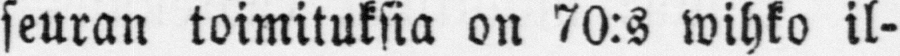seuran toimituksia on 70:s wihko il-
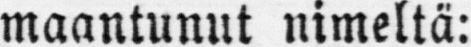maantunut nimeltä:
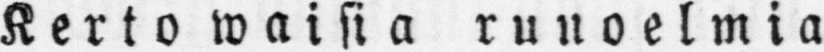Kerto waisia runoelmia.
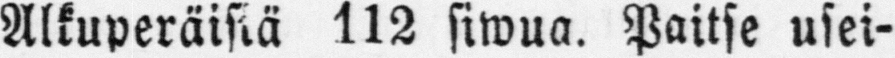Alkuperäisiä 112 siwua. Paitse usei-
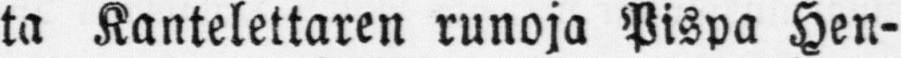ta Kantelettaren runoja Pispa Hen-
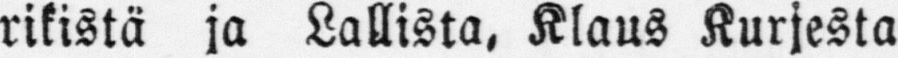rikistä ja Lallista. Klaus Kurjesta
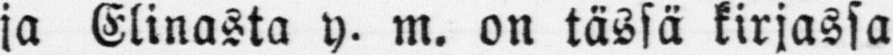ja Elinasta y. m. on tässä kirjassa
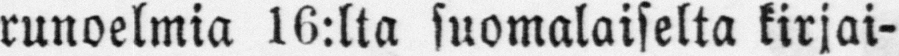runoelmia 16:lta suomalaiselta kirjai-
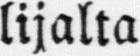lijalta.
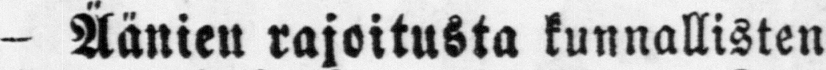— Äänien rajoitusta kunnallisten
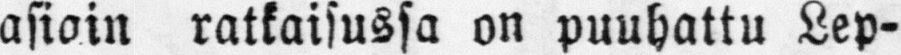asiain ratkaisussa on puuhattu Lep-
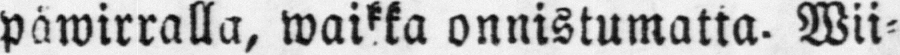päwirralla, waikka onnistumatta. Wii-
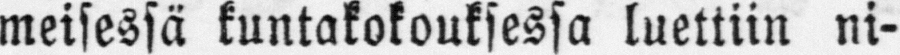meisessä kuntakokouksessa luettiin ni-
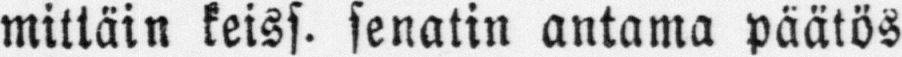mittäin keiss. senatin antama päätös
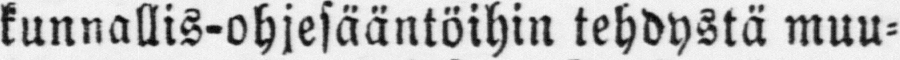kunnallis-ohjesääntöihin tehdystä muu-
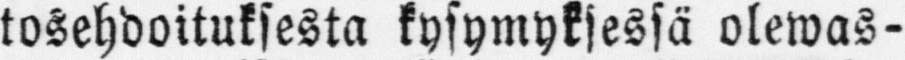tosehdoituksesta kysymyksessä olewas-
